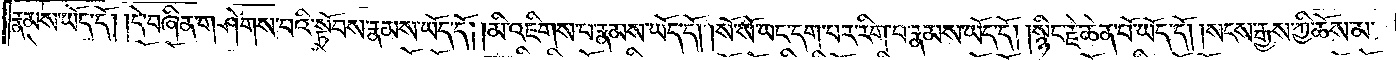རྣམས་ཡོད་དོ། །དེ་བཞིན་གཤེགས་པའི་སྟོབས་རྣམས་ཡོད་དོ། །མི་འཇིགས་པ་རྣམས་ཡོད་དོ། །སོ་སོ་ཡང་དག་པར་རིག་པ་རྣམས་ཡོད་དོ། །སྙིང་རྗེ་ཆེན་པོ་ཡོད་དོ། །སངས་རྒྱས་ཀྱི་ཆོས་མ་
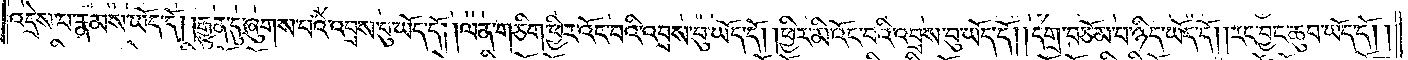འདྲེས་པ་རྣམས་ཡོད་དོ། །རྒྱུན་དུ་ཞུགས་པའི་འབྲས་བུ་ཡོད་དོ། །ལན་གཅིག་ཕྱིར་འོང་བའི་འབྲས་བུ་ཡོད་དོ། །ཕྱིར་མི་འོང་བའི་འབྲས་བུ་ཡོད་དོ། །དགྲ་བཅོམ་པ་ཉིད་ཡོད་དོ། །རང་བྱང་ཆུབ་ཡོད་དོ། །
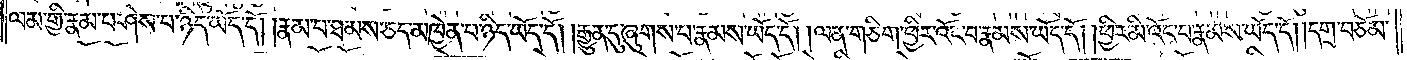ལམ་གྱི་རྣམ་པ་ཤེས་པ་ཉིད་ཡོད་དོ། །རྣམ་པ་ཐམས་ཅད་མཁྱེན་པ་ཉིད་ཡོད་དོ། །རྒྱུན་དུ་ཞུགས་པ་རྣམས་ཡོད་དོ། །ལན་གཅིག་ཕྱིར་འོང་བ་རྣམས་ཡོད་དོ། །ཕྱིར་མི་འོང་བ་རྣམས་ཡོད་དོ། །དགྲ་བཅོམ་
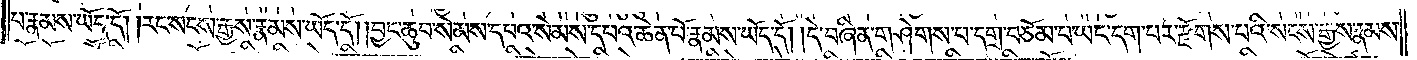པ་རྣམས་ཡོད་དོ། །རང་སངས་རྒྱས་རྣམས་ཡོད་དོ། །བྱང་ཆུབ་སེམས་དཔའ་སེམས་དཔའ་ཆེན་པོ་རྣམས་ཡོད་དོ། །དེ་བཞིན་གཤེགས་པ་དགྲ་བཅོམ་པ་ཡང་དག་པར་རྫོགས་པའི་སངས་རྒྱས་རྣམས་
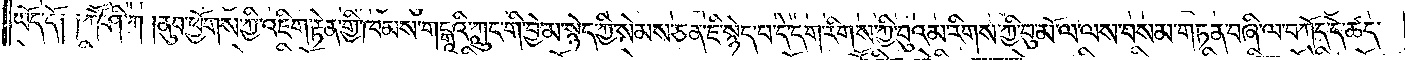ཡོད་དོ༑ ༑ཀཽ་ཤི་ཀ །ནུབ་ཕྱོགས་ཀྱི་འཇིག་རྟེན་གྱི་ཁམས་གངྒཱའི་ཀླུང་གི་བྱེ་མ་སྙེད་ཀྱི་སེམས་ཅན་ཇི་སྙེད་པ་དེ་དག་རིགས་ཀྱི་བུའམ་རིགས་ཀྱི་བུ་མོ་ལ་ལས་བསམ་གཏན་བཞི་ལ་བཀོད་དེ་ཚད་
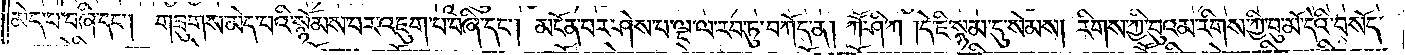མེད་པ་བཞི་དང༌། གཟུགས་མེད་པའི་སྙོམས་པར་འཇུག་པ་བཞི་དང༌། མངོན་པར་ཤེས་པ་ལྔ་ལ་རབ་ཏུ་བཀོད་ན། ཀཽ་ཤི་ཀ །དེ་ཇི་སྙམ་དུ་སེམས། རིགས་ཀྱི་བུའམ་རིགས་ཀྱི་བུ་མོ་དེའི་བསོད་
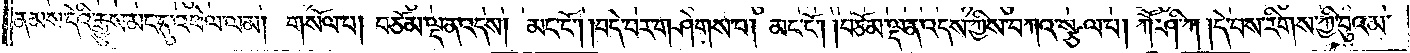ནམས་དེའི་རྒྱུས་མང་དུ་འཕེལ་ལམ། གསོལ་པ། བཅོམ་ལྡན་འདས། མང་ངོ༌། །བདེ་བར་གཤེགས་པ། མང་ངོ༌། །བཅོམ་ལྡན་འདས་ཀྱིས་བཀའ་སྩལ་པ། ཀཽ་ཤི་ཀ །དེ་བས་རིགས་ཀྱི་བུའམ་
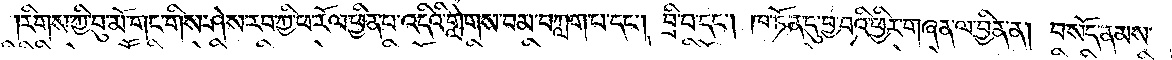རིགས་ཀྱི་བུ་མོ་གང་གས་ཤེས་རབ་ཀྱི་ཕ་རོལ་ཏུ་ཕྱིན་པ་འདིའི་གླེགས་བམ་བཀླག་པ་དང༌། བྲི་བ་དང༌། ཁ་ཏོན་དུ་བྱ་བའི་ཕྱིར་གཞན་ལ་བྱིན་ན། བསོད་ནམས་
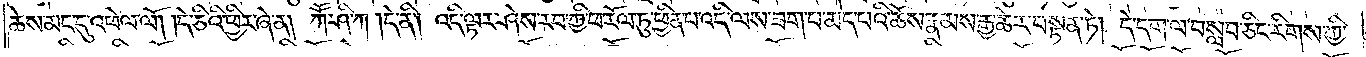ཆེས་མང་དུ་འཕེལ་ལོ། །དེ་ཅིའི་ཕྱིར་ཞེ་ན། ཀཽ་ཤི་ཀ །དེ་ནི། འདི་ལྟར་ཤེས་རབ་ཀྱི་ཕ་རོལ་ཏུ་ཕྱིན་པ་འདི་ལས་ཟག་པ་མེད་པའི་ཆོས་རྣམས་རྒྱ་ཆེར་བསྟན་ཏེ། དེ་དག་ལ་བསླབ་ཅིང་རིགས་ཀྱི་
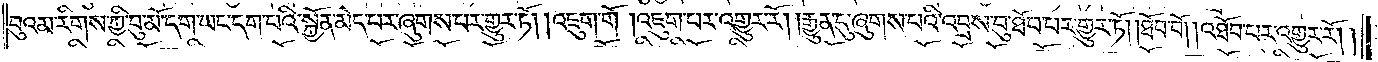བུའམ་རིགས་ཀྱི་བུ་མོ་དག་ཡང་དག་པའི་སྐྱོན་མེད་པར་ཞུགས་པར་གྱུར་ཏོ། །འཇུག་གོ །འཇུག་པར་འགྱུར་རོ། །རྒྱུན་དུ་ཞུགས་པའི་འབྲས་བུ་ཐོབ་པར་གྱུར་ཏོ། །ཐོབ་བོ། །འཐོབ་པར་འགྱུར་རོ། །
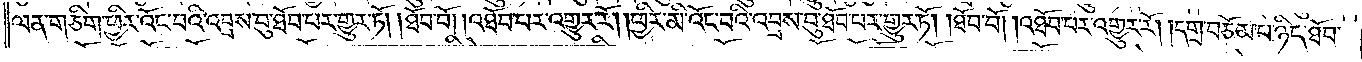ལན་གཅིག་ཕྱིར་འོང་བའི་འབྲས་བུ་ཐོབ་པར་གྱུར་ཏོ། །ཐོབ་བོ། འཐོབ་པར་འགྱུར་རོ། །ཕྱིར་མི་འོང་བའི་འབྲས་བུ་ཐོབ་པར་གྱུར་ཏོ། །ཐོབ་བོ། འཐོབ་པར་འགྱུར་རོ། །དགྲ་བཅོམ་པ་ཉིད་ཐོབ་
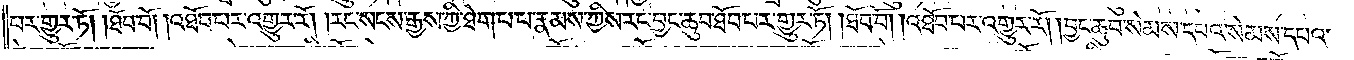པར་གྱུར་ཏོ། །ཐོབ་བོ། འཐོབ་པར་འགྱུར་རོ། །རང་སངས་རྒྱས་ཀྱི་ཐེག་པ་པ་རྣམས་ཀྱིས་རང་བྱང་ཆུབ་ཐོབ་པར་གྱུར་ཏོ། །ཐོབ་བོ། འཐོབ་པར་འགྱུར་རོ༎ བྱང་ཆུབ་སེམས་དཔའ་སེམས་དཔའ་
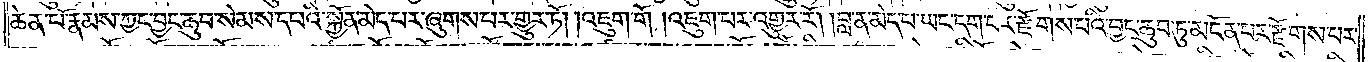ཆེན་པོ་རྣམས་ཀྱང་བྱང་ཆུབ་སེམས་དཔའི་སྐྱོན་མེད་པར་ཞུགས་པར་གྱུར་ཏོ། །འཇུག་གོ །འཇུག་པར་འགྱུར་རོ། །བླ་ན་མེད་པ་ཡང་དག་པར་རྫོགས་པའི་བྱང་ཆུབ་ཏུ་མངན་པར་རྫོགས་པར་
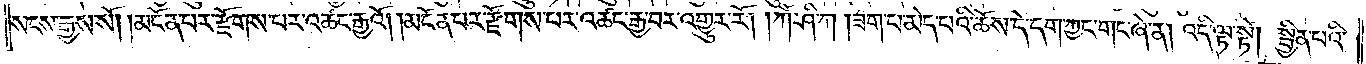སངས་རྒྱས་སོ། །མངོན་པར་རྫོགས་པར་འཚང་རྒྱའོ། །མངོན་པར་རྫོགས་པར་འཚང་རྒྱ་བར་འགྱུར་རོ། །ཀཽ་ཤི་ཀ །ཟག་པ་མེད་པའི་ཆོས་དེ་དག་ཀྱང་གང་ཞེ་ན། འདི་ལྟ་སྟེ། སྦྱིན་པའི་
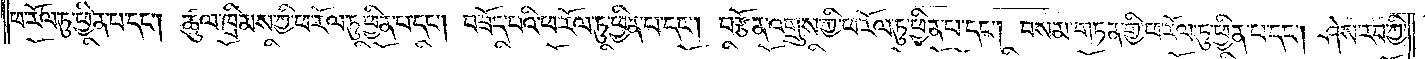ཕ་རོལ་ཏུ་ཕྱིན་པ་དང༌། ཚུལ་ཁྲིམས་ཀྱི་ཕ་རོལ་ཏུ་ཕྱིན་པ་དང༌། བཟོད་པའི་ཕ་རོལ་ཏུ་ཕྱིན་པ་དང༌། བརྩོན་འགྲུས་ཀྱི་ཕ་རོལ་ཏུ་ཕྱིན་པ་དང༌། བསམ་གཏན་གྱི་ཕ་རོལ་ཏུ་ཕྱིན་པ་དང༌། ཤེས་རབ་ཀྱི་
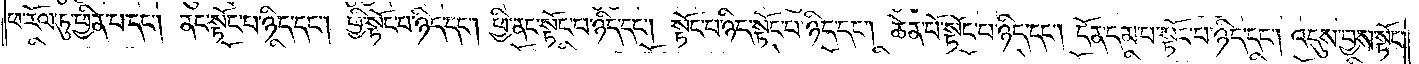ཕ་རོལ་ཏུ་ཕྱིན་པ་དང༌། ནང་སྟོང་པ་ཉིད་དང༌། ཕྱི་སྟོང་པ་ཉིད་དང༌། ཕྱི་ནང་སྟོང་པ་ཉིད་དང༌། སྟོང་པ་ཉིད་སྟོང་པ་ཉིད་དང༌། ཆེན་པོ་སྟོང་པ་ཉིད་དང༌། དོན་དམ་པ་སྟོང་པ་ཉིད་དང༌། འདུས་བྱས་སྟོང་
